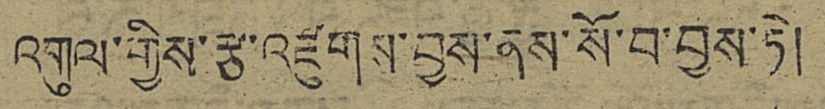འགུལ་གྱིས་རྩ་འཛུགས་བྱས་ནས་སོ་བ་བྱས་ཏེ།
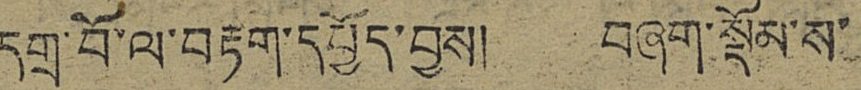དགྲ་བོ་ལ་བརྟག་དཔྱོད་བྱས། བཞག་སྡོམ་ས་
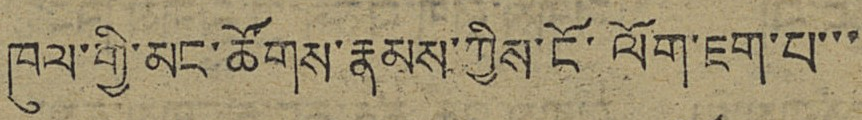ཁུལ་གྱི་མང་ཚོགས་རྣམས་ཀྱིས་ངོ་ལོག་ཇག་པ་་་
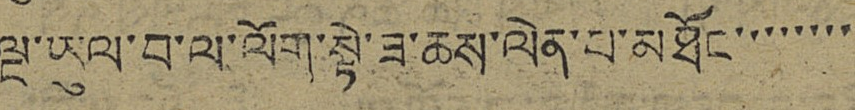ལྔ་ཡུལ་བ་ལ་ལོག་སྟེ་ཟ་ཆས་ལེན་པ་མཐོང་་་་་་་་
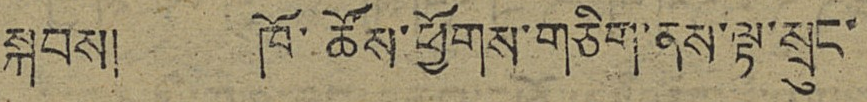སྐབས། ཁོ་ཚོས་ཕྱོགས་གཅིག་ནས་ལྟ་སྲུང་
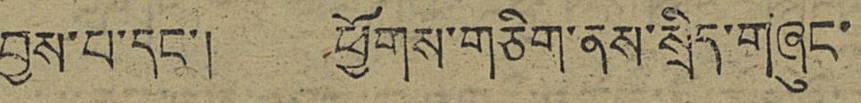བྱས་པ་དང་། ཕྱོགས་གཅིག་ནས་སྲིད་གཞུང་
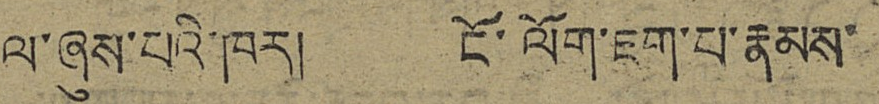ལ་ཞུས་པའི་ཁར། ངོ་ལོག་ཇག་པ་རྣམས་
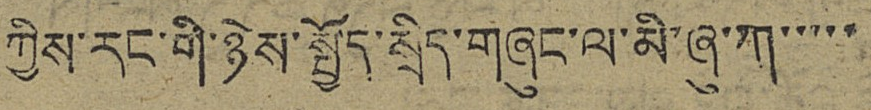ཀྱིས་རང་གི་ཉེས་སྤྱོད་སྲིད་གཞུང་ལ་མི་ཞུ་ཀ་་་་་
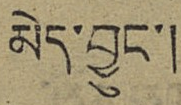མེད་བྱུང་།
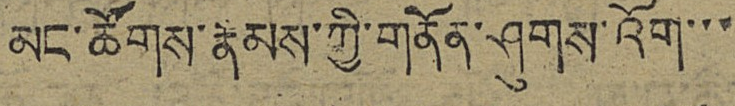མང་ཚོགས་རྣམས་ཀྱི་གནོན་ཤུགས་འོག་་་
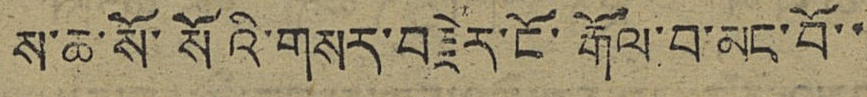ས་ཆ་སོ་སོའི་གསར་བརྗེར་ངོ་རྒོལ་བ་མང་བོ་་
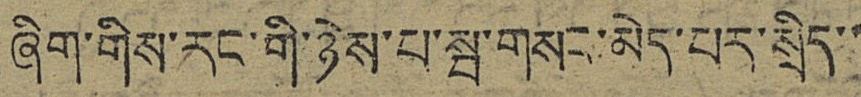ཞིག་གིས་རང་གི་ཉེས་པ་སྤ་གསང་མེད་པར་སྲིད་་
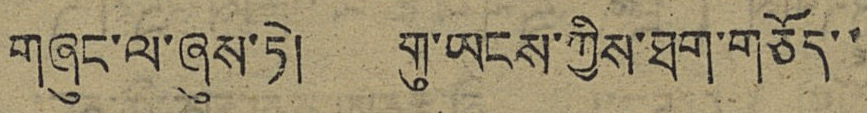གཞུང་ལ་ཞུས་ཏེ། གུ་ཡངས་ཀྱིས་ཐག་གཅོད་་
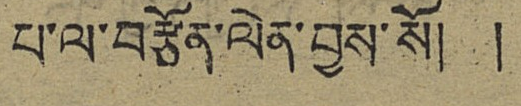པ་ལ་བརྩོན་ལེན་བྱས་སོ་། །
